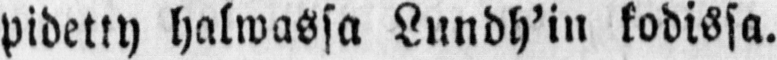pidetty halwassa Lundh'in kodissa.
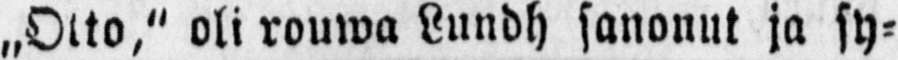„Otto," oli rouwa Lundh sanonut ja sy-
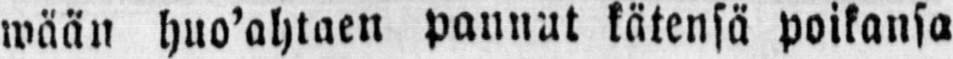wään huo'ahtaen pannut kätensä poikansa
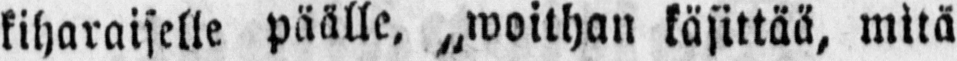kiharaiselle päälle, ˶woithan käsittää, mitä
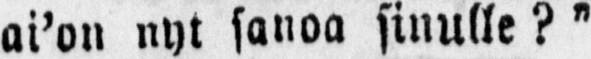ai'on nyt sanoa sinulle?"
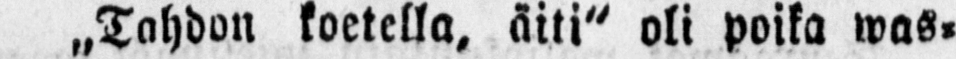˶Tahdon koetella, äiti" oli poika was-
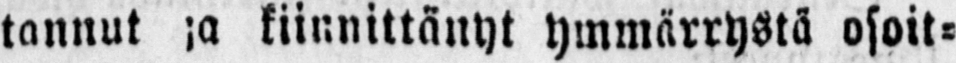tannut ja kiinnittänyt ymmärrystä osoit-
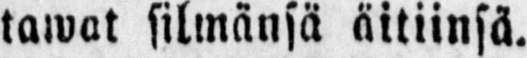tawat silmänsä äitiinsä.
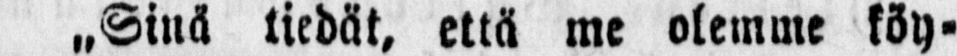˶Sinä tiedät, että me olemme köy-
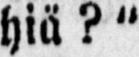hiä?"
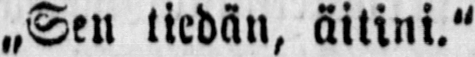„Sen tiedän, äitini."
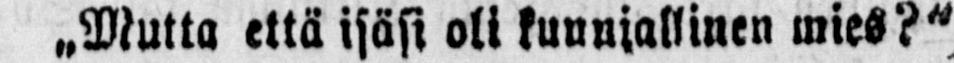˶Mutta että isäsi oli kunniallinen mies?"
